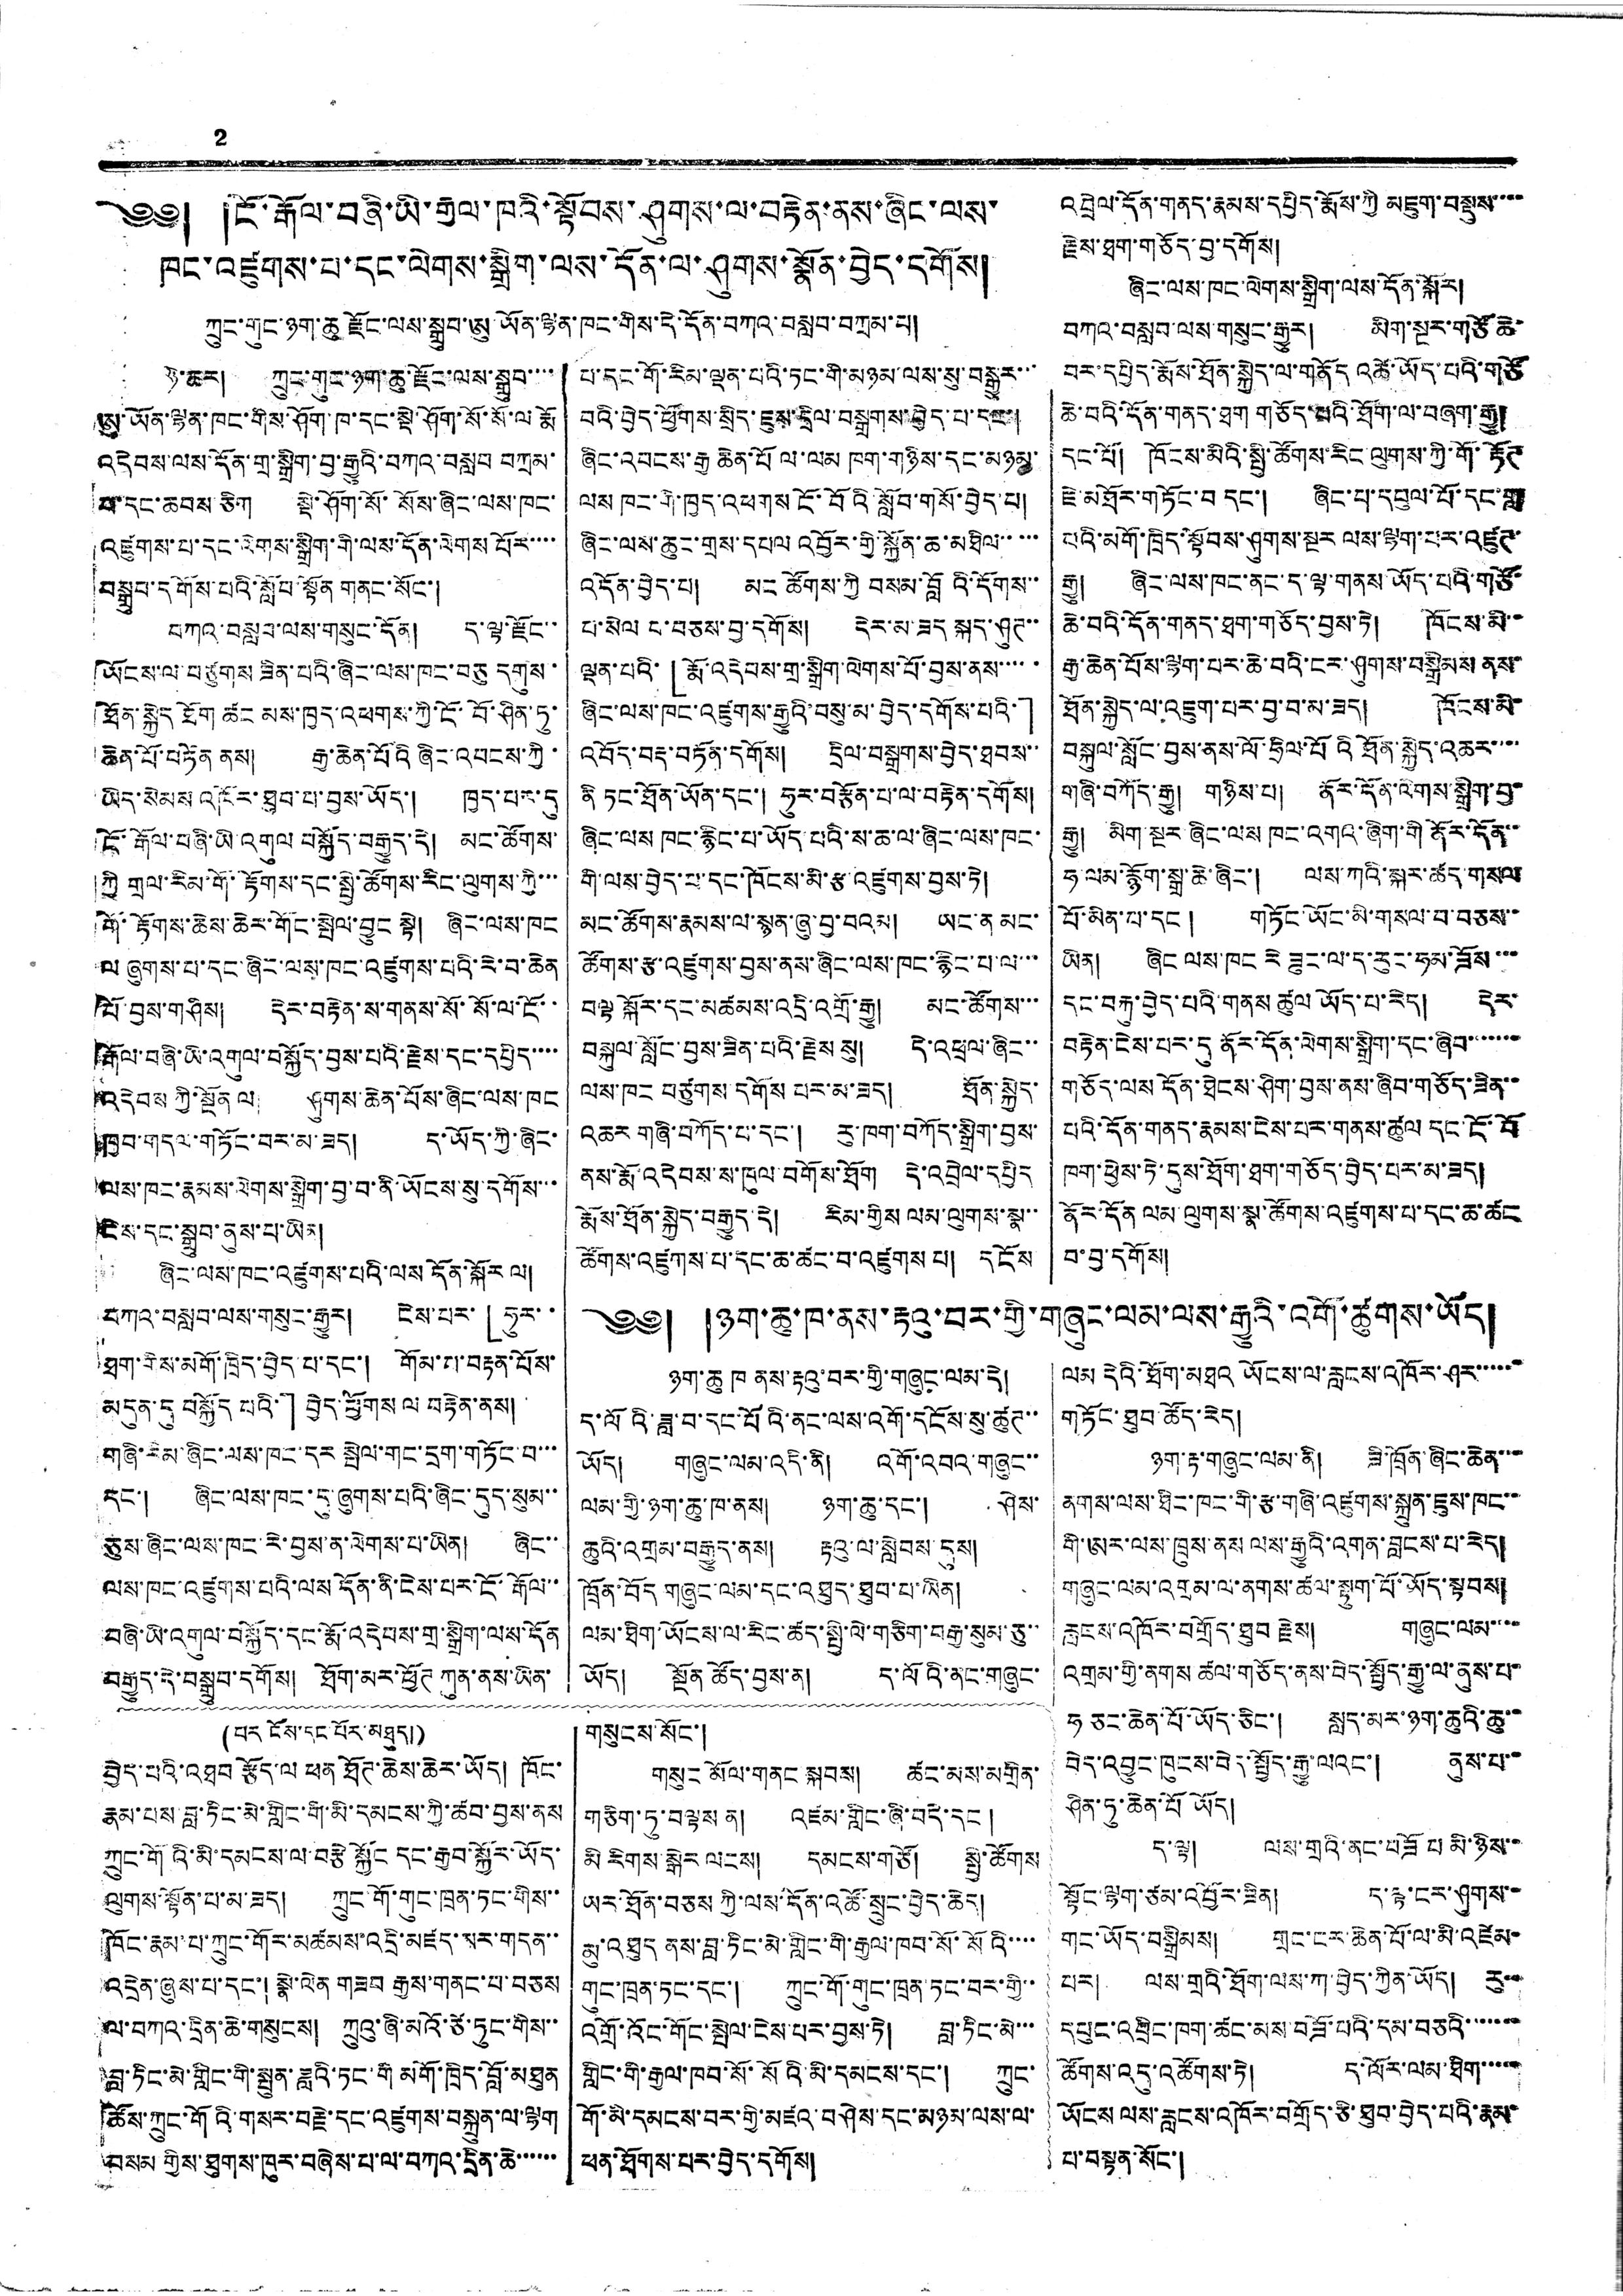2
༄༅། །ངོ་རྒོལ་བཞི་ཡི་རྒྱལ་ཁའི་སྟོབས་ཤུགས་ལ་བརྟེན་ནས་ཞིང་ལས་
ཁང་འཛུགས་པ་དང་ལེགས་སྒྲིག་ལས་དོན་ལ་ཤུགས་སྣོན་བྱེད་དགོས།
ཀྲུང་གུང་ཉག་ཆུ རྫོང་ལས་སྒྲུབ་ཨུ་ཡོན་ལྷན་ཁང་གིས་དེ་དོན་བཀའ་བསླབ་བཀྲམ་པ།
ཉེ་ཆར། ཀྲུང་གུང་ཉག་ཆུ་རྫོང་ལས་སྒྲུབ་་་་
ཨུ་ཡོན་ལྷན་ཁང་གིས་ཤོག་ཁ་དང་སྡེ་ཤོག་སོ་སོ་ལ རྨོ
འདེབས་ལས་དོན་གྲ་སྒྲིག་བྱ་རྒྱུའི་བཀའ་བསླབ བཀྲམ་
པ་དང་ཆབས་ཅིག སྡེ་ཤོག་སོ་སོས་ཞིང་ལས་ཁང་
འཛུགས་པ་དང་ལེགས་སྒྲིག་གི་ལས་དོན་ལེགས པོར་་་་
བསྒྲུབ་དགོས་པའི་སློབ་སྟོན གནང་སོང་།
བཀའ་བསླབ་ལས་གསུང་དོན། ད་ལྟ་རྫོང་་
ཡོངས་ལ་བཙུགས ཟིན་པའི་ཞིང་ལས་ཁང་བཅུ དགུས་
ཐོན་སྐྱེད ཐོག ཚང མས་ཁྱད་འཕགས་ཀྱི་ངོ་བོ་ཤིན་ཏུ་
ཆེན་པོ་བཏོན ནས། རྒྱ་ཆེན་པོའི ཞིང་འབངས་ཀྱི་
ཡིད་སེམས འཁོར་ཐུབ་པ་བྱས་ཡོད་། ཁྱད་པར་དུ
ངོ་རྒོལ་བཞི་ཡི་འགུལ བསྐྱོད་བརྒྱུད་དེ། མང་ཚོགས་
ཀྱི གྲལ་རིམ་གོ་རྟོགས་དང་སྤྱི་ཚོགས་རིང་ལུགས་ཀྱི་་་
གོ་རྟོགས་ཆེས་ཆེར་གོང་སྤེལ་བྱུང སྟེ། ཞིང་ལས་ཁང
ལ ཞུགས་པ་དང་ཞིང་ལས་ཁང་འཛུགས་པའི་རེ་བ་ཆེན
པོ་བྱས་གཤིས། དེར་བརྟེན་ས་གནས་སོ་སོ་ལ་ངོ་་
རྒོལ་བཞི་ཡི་འགུལ་བསྐྱོད་བྱས་པའི་རྗེས་དང་དཔྱིད་་་་
འདེབས ཀྱི་སྔོན ལ། ཤུགས་ཆེན་པོས་ཞིང་ལས་ཁང
ཁྱབ་གདའ་གཏོང་བར་མ་ཟད། ད་ཡོད་ཀྱི་ཞིང་
ལས་ཁང་རྣམས་ལེགས་སྒྲིག་བྱ་བ་ནི་ཡོངས་སུ་དགོས་་་
ངེས་དང་སྒྲུབ་ནུས་པ་ཡིན།
ཞིང་ལས་ཁང་འཛུགས་པའི་ལས དོན་སྐོར ལ།
བཀའ་བསླབ་ལས་གསུང་རྒྱུར། ངེས་པར་「ཧུར་་
ཐག་གིས་མགོ་ཁྲིད་བྱེད་པ་དང་། གོམ་པ་བརྟེན་པོས་
མདུན་དུ བསྐྱོད པའི་」བྱེད་ཕྱོགས ལ བརྟེན་ནས།
གཞི་རིམ་ཞིང་ལས་ཁང་དར སྤེལ་གང་དྲག་གཏོང་བ་་་
དང་། ཞིང་ལས་ཁང་དུ་ཞུགས་པའི་ཞིང་དུད་སུམ་་
ཅུས་ཞིང་ལས་ཁང་རེ་བྱས་ན་ལེགས་པ་ཡིན། ཞིང་་
ལས་ཁང་འཛུགས་པའི་ལས དོན་ནི་ངེས་པར་ངོ་རྒོལ་་
བཞི་ཡི་འགུལ་བསྐྱོད་དང་རྨོ་འདེབས་གྲ་སྒྲིག་ལས་དོན
བརྒྱུད་དེ་བསྒྲུབ་དགོས། ཐོག་མར་ཕྱོཊ ཀུན་ནས་ཡིན་
པ་དང་གོ་རིམ་ལྡན་པའི་ཏང་གི་མཉམ་ལས་སུ་བསྒྱུར་་་
བའི་བྱེད་ཕྱོགས་སྲིད་ཇུས་དྲིལ་བསྒྲགས་བྱེད་པ་དང་།
ཞིང་འབངས་རྒྱ ཆེན་པོ ལ་ལམ ཁག་གཉིས་དང་མཉམ་
ལས ཁང་གི་ཁྱད་འཕགས ངོ་བོའི་སློབ་གསོ་བྱེད་པ།
ཞིང་ལས་ཆུང་གྲས་དཔལ འབྱོར་གྱི་སྐྱོན་ཆ་མཐིལ་་་་་
འདོན་བྱེད་པ། མང ཚོགས་ཀྱི བསམ་བློའི་དོགས་་
པ་སེལ བ་བཅས་བྱ་དགོས། དེར་མ་ཟད སྐད་ཤུཊ་་
ལྡན་པའི་「རྨོ་འདེབས་གྲ་སྒྲིག་ལེགས་པོ་བྱས་ནས་་་་་
ཞིང་ལས་ཁང་འཛུགས་རྒྱུའི་བསུ་མ་བྱེད་དགོས་པའི་」
འབོད་བརྡ་བཏོན་དགོས། དྲིལ་བསྒྲགས་བྱེད་ཐབས་་
ནི ཏང་ཐོན་ཡོན་དང་། ཧུར་བརྩོན་པ་ལ་བརྟེན་དགོས།
ཞིང་ལས ཁང་རྙིང་པ་ཡོད་པའི་ས་ཆ་ལ་ཞིང་ལས་ཁང་
གི་ལས་བྱེད་པ་དང་ཁོངས་མི་རྩ་འཛུགས་བྱས་ཏེ།
མང་ཚོགས་རྣམས་ལ་སྙན་ཞུ་བྱ་བའམ། ཡང་ན མང་
ཚོགས་རྩ་འཛུགས་བྱས་ནས་ཞིང་ལས་ཁང་རྙིང་པ་ལ་་་
བལྟ སྐོར་དང་མཚམས་འདྲི་འགྲོ་རྒྱུ། མང་ཚོགས་་་
བསྐུལ་སློང་བྱས་ཟིན་པའི་རྗེས སུ། དེ་འཕྲལ་ཞིང་་
ལས་ཁང བཙུགས དགོས པར་མ་ཟད། ཐོན་སྐྱེད་
འཆར གཞི་བཀོད་པ་དང་། རུ་ཁག་བཀོད་སྒྲིག་བྱས་
ནས་རྨོ་འདེབས་ས་ཁུལ་བགོས་ཐོག དེ་འབྲེལ་དཔྱིད
རྨོས་ཐོན་སྐྱེད་བརྒྱུད་དེ། རིམ་གྱིས ལམ་ལུགས་སྣ་་
ཚོགས་འཛུགས་པ་དང་ཆ་ཚང་བ་འཛུགས པ། དངོས
འབྲེལ་དོན་གནད་རྣམས་དཔྱིད་རྨོས་ཀྱི མཇུག་བསྡུས་་་་
རྗེས་ཐག་གཅོད་བྱ་དགོས།
ཞིང་ལས་ཁང་ལེགས་སྒྲིག་ལས་དོན་སྐོར།
བཀའ་བསླབ་ལས་གསུང་རྒྱུར། མིག་སྔར་གཙོ ཆེ་
བར་དཔྱིད་རྨོས་ཐོན་སྐྱེད་ལ་གནོད འཚེ་ཡོད་པའི་གཙོ
ཆེ་བའི་དོན་གནད་ཐག གཅོད་པའི་ཐོག་ལ་བཞག་རྒྱུ།
དང་པོ། ཁོངས་མིའི་སྤྱི་ཚོགས་རིང ལུགས་ཀྱི་གོ་རྟོཊ
ཇེ་མཐོར་གཏོང་བ དང་། ཞིང་པ་དབུལ་པོ་དང་གླ
པའི་མགོ་ཁྲིད་སྟོབས་ཤུགས་སྔར ལས་ལྷག་པར་འཛུཊ་
རྒྱུ། ཞིང་ལས་ཁང་ནང་ད་ལྟ་གནས ཡོད་པའི་གཙོ་
ཆེ་བའི་དོན་གནད་ཐག་གཅོད་བྱས་ཏེ། ཁོངས་མི་་
རྒྱ་ཆེན་པོས་ལྷག་པར་ཆེ་བའི་ངར་ཤུགས་བསྒྲིམས ནས་
ཐོན་སྐྱེད་ལ་འཇུག་པར་བྱ་བ་མ་ཟད། ཁོངས་མི་
བསྐུལ་སློང་བྱས་ནས་ལོ་ཧྲིལ་པོའི ཐོན་སྐྱེད་འཆར་་་་
གཞི་བཀོད་རྒྱུ། གཉིས་པ། ནོར་དོན་ལེགས་སྒྲིག་བྱ་
རྒྱུ། མིག་སྔར ཞིང་ལས ཁང་འགའ་ཞིག་གི ནོར་དོན་་
ཧ་ལམ་རྙོག་སྒྲ་ཆེ་ཞིང་། ལས་ཀའི་སྐར་ཚད་གསལ
པོ་མིན་པ་དང་། གཏོང་ཡོང་མི་གསལ་བ་བཅས་་
ཡིན། ཞིང ལས་ཁང རེ ཟུང་ལ་ད་རུང་ཧམ་ཟོས་་་
དང་བརྐུ་བྱེད་པའི་གནས ཚུལ ཡོད་པ་རེད། དེར་
བརྟེན་ངེས་པར་དུ ནོར་དོན་ལེགས་སྒྲིག་དང་ཞིབ་་་་་་་
གཅོད་ལས དོན་ཐེངས་ཤིག་བྱས་ནས་ཞིབ་གཅོད་ཟིན་་
པའི་དོན་གནད་རྣམས་ངེས་པར་གནས་ཚུལ དང་ངོ་བོ
ཁག་ཕྱེས་ཏེ་དུས་ཐོག་ཐག་གཅོད་བྱད་པར་མ་ཟད།
ནོར་དོན ལམ་ལུགས་སྣ་ཚོགས་འཛུགས་པ་དང་ཆ་ཚང
བ་བྱ་དགོས།
༄༅། །ཉག་ཆུ་ཁ་ནས་རྟའུ་བར་གྱི་གཞུང་ལམ་ལས་རྒྱུའི་འགོ་ཚུགས་ཡོད།
ཉག་ཆུ ཁ ནས་རྟའུ་བར་གྱི་གཞུང་ལམ་དེ།
ད་ལོའི་ཟླ་བ་དང་པོའི་ནང་ལས་འགོ་དངོས་སུ་ཚུཊ་་
ཡོད། གཞུང་ལམ་འདི་ནི། འགོ་འབའ་གཞུང་་
ལམ་གྱི་ཉག་ཆུ་ཁ་ནས། ཉག་ཆུ་དང་། ཤེས་
ཆུའི་འགྲམ་བརྒྱུད་ནས། རྟའུ་ལ་སླེབས་དུས།
ཁྲོན་བོད གཞུང་ལམ་དང་འཐུད་ཐུབ་པ་ཡིན།
ལམ་ཐིག་ཡོངས་ལ་རིང་ཚད་སྤྱི་ལེ་གཅིག་བརྒྱ་སུམ་ཅུ་་
ཡོད། སྔོན ཚོད་བྱས་ན། ད་ལོའི་ནང་གཞུང་
ལམ དེའི་ཐོག་མཐའ ཡོངས་ལ་རླངས་འཁོར་ཤར་་་་་་
གཏོང་ཐུབ་ཚོད་རེད།
ཉག་རྟ་གཞུང་ལམ་ནི། ཟི་ཁྲིན་ཞིང་ཆེན་་་
ནགས་ལས་ཐིང་ཁང་གི་རྩ་གཞི་འཛུགས་སྐྲུན་ཇུས་ཁང་་
གི་ཨར་ལས་ཁྲུས་ནས ལས་རྒྱུའི་འགན་བླངས་པ་རེད།
གཞུང་ལམ་འགྲམ་ལ་ནགས་ཚལ་སྟུག་པོ་ཡོད་སྟབས།
རླངས་འཁོར་བགྲོད་ཐུབ རྗེས། གཞུང་ལམ་་་་
འགྲམ་གྱི་ནགས ཚལ་གཅོད་ནས་བེད་སྤྱོད་རྒྱུ་ལ་ནུས་པ་
ཧ ཅང་ཆེན་པོ་ཡོད་ཅིང་། སླད་མར་ཉག་ཆུའི་ཆུ་་
བེད་འབྱུང་ཁུངས་བེད་སྤྱོད་རྒྱུ་ལའང་། ནུས་པ་་
ཤིན་ཏུ་ཆེན་པོ ཡོད།
ད་ལྟ། ལས་གྲའི་ནང་བཟོ པ མི་ཉིས་་
སྟོང་ལྷག་ཙམ་འབྱོར་ཟིན། ད་ལྟ་ངར་ཤུགས་་
གང་ཡོད་བསྒྲིམས། གྲང་ངར་ཆེན་པོ་ལ་མི་འཛེམ་
པར། ལས་གྲའི་ཐོག་ལས་ཀ་བྱེད་ཀྱིན་ཡོད། རུ་་
དཔུང་འབྲིང་ཁག་ཚང་མས་བཟོ་པའི་དམ་བཅའི་་་་་་་
ཚོགས་འདུ་འཚོགས་ཏེ། ད་ལོར་ལམ་ཐིག་་་་་
ཡོངས ལས་རླངས་འཁོར་བགྲོད་ཅི་ཐུབ་བྱེད་པའི་རྣམ་
པ་བསྟན་སོང་།
(པར ངོས་དང པོར་མཐུད།)
བྱེད་པའི་འཐབ རྩོད་ལ ཕན ཐོཊ་ཆེས་ཆེར་ཡོད། ཁོང་
རྣམ་པས་བླ་ཏིང་མེ་གླིང་གི་མི་དམངས་ཀྱི་ཚབ་བྱས་ནས
ཀྲུང་གོའི་མི་དམངས་ལ་བརྩེ སྐྱོང དང་རྒྱབ་སྐྱོར་ཡོད་
ལུགས་སྟོན་པ་མ་ཟད། ཀྲུང་གོ་གུང་ཁྲན་ཏང་གིས་་
ཁོང་རྣམ་པ་ཀྲུང་གོར་མཚམས་འདྲི་མཛད་མར་གདན་་
འདྲེན་ཞུས་པ་དང་། སྣེ་ལེན གཟབ རྒྱས་གནང་པ་བཅས
ལ་བཀའ་དྲིན་ཆེ་གསུངས། ཀྲུའུ་ཞི་མའོ་ཙེ་ཏུང་གིས་་
བླ་ཏིང་མེ་གླིང་གི་སྤུན་ཟླའི་ཏང་གི མགོ་ཁྲིད་བློ་མཐུན
ཚོས་ཀྲུང་གོའི་གསར་བརྗེ་དང་འཛུགས་བསྐྲུན་ལ་ལྷག
བསམ་གྱིས་ཐུགས་ཁུར་བཞེས་པ་ལ་བཀའ་དྲིན་ཆེ་་་་་་
གསུངས་སོང་།
གསུང མོལ་གནང སྐབས། ཚང་མས་མགྲིན་
གཅིག་ཏུ་བལྟས ན། འཛམ་གླིང་ཞི་བདེ་དང །
མི རིགས་སྒེར ལངས། དམངས་གཙོ། སྤྱི་ཚོགས
ཡར་ཐོན་བཅས ཀྱི་ལས་དོན་འཚོ་སྲུང་བྱེད་ཆེད།
མུ་འཐུད ནས་བླ་ཏིང་མེ་གླིང་གི་རྒྱལ་ཁབ་སོ་སོའི་་་་
གུང་ཁྲན་ཏང་དང་། ཀྲུང་གོ་གུང་ཁྲན་ཏང་བར་གྱི་་
འགྲོ་འོང་གོང་སྤེལ་ངེས་པར་བྱས་ཏེ། བླ་ཏིང་མེ་་་
གླིང་གི་རྒྱལ་ཁབ་སོ་སོའི་མི་དམངས་དང་། ཀྲུང་
གོ་མི་དམངས་བར་གྱི་མཛའ་བཤེས་དང་མཉམ་ལས་ལ་
ཕན་ཐོགས་པར་བྱེད་དགོས།
